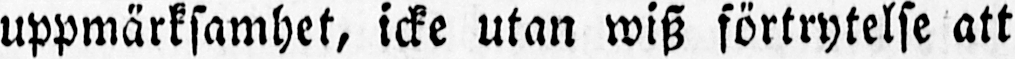uppmärksamhet, icke utan wisz förtrytelse att
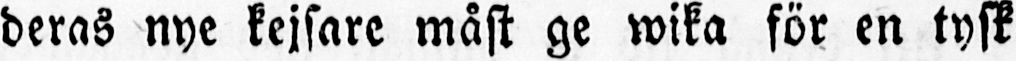deras nye kejsare måst ge wika för en tysk
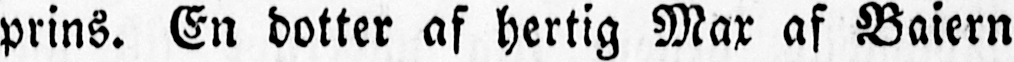prins. En dotter af hertig Max af Baiern
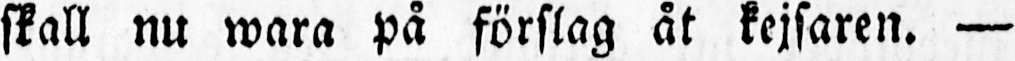skall nu wara på förslag åt kejsaren. —
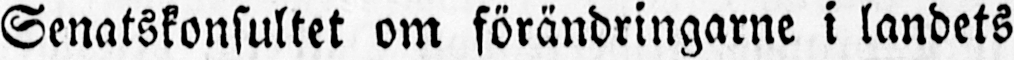Senatskonsultet om förändringarne i landets
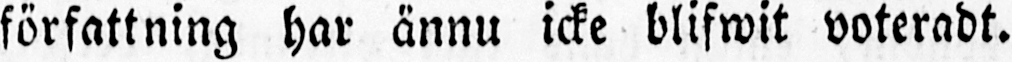författning har ännu icke blifwit voteradt.
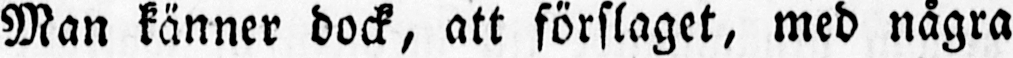Man känner dock, att förslaget, med några
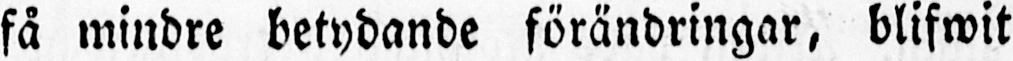få mindre betydande förändringar, blifwit
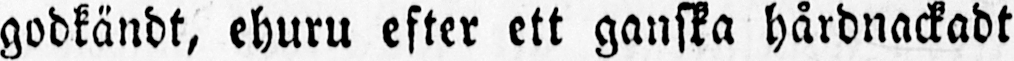godkändt, ehuru efter ett ganska hårdnackadt
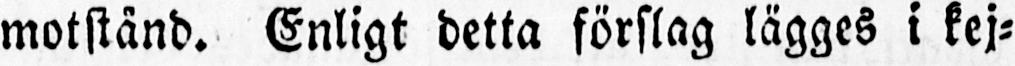motstånd. Enligt detta förslag lägges i kej-
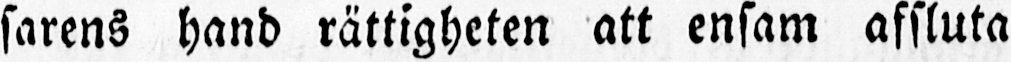sarens hand rättigheten att ensam afsluta
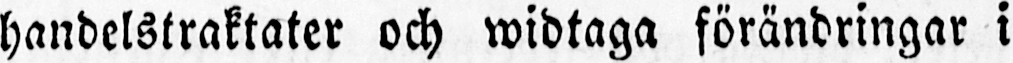handelstraktater och widtaga förändringar i
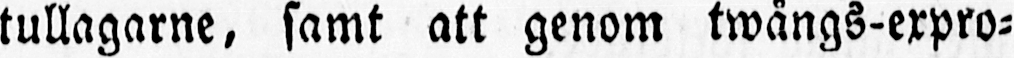tullagarne, samt att genom twångs-expro-
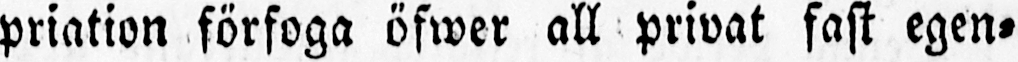priation förfoga öfwer all privat fast egen-
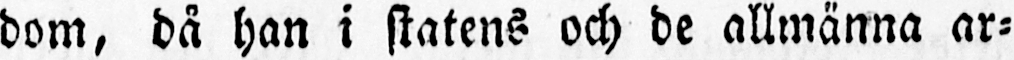dom, då han i statens och de allmänna ar-
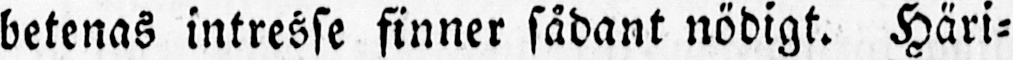betenas intresse finner sådant nödigt. Häri-
